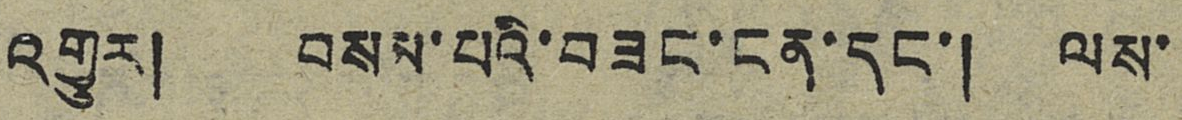འགྱུར། བསམ་པའི་བཟང་ངན་དང་། ལས་
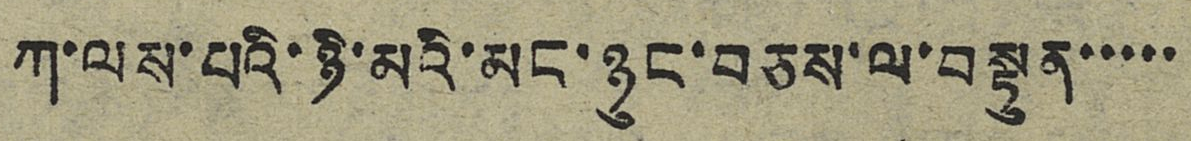ཀ་ལས་པའི་ཉི་མའི་མང་ཉུང་བཅས་ལ་བསྟུན་་་་་
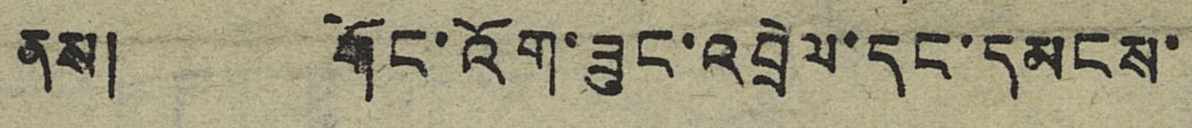ནས། གོང་འོག་ཟུང་འབྲེལ་དང་དམངས་
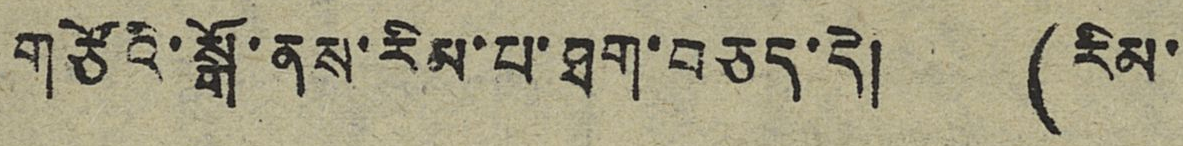གཙོའི་སྒོ་ནས་རིམ་པ་ཐག་བཅད་དེ། (རིམ་
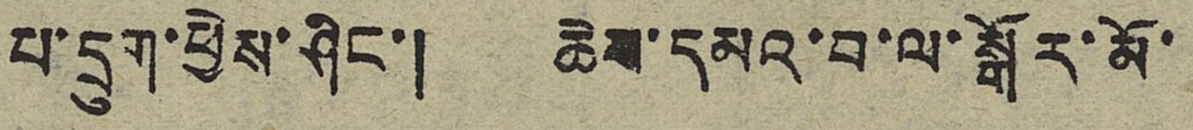པ་དྲུག་ཕྱེས་ཤིང་། ཆེས་དམའ་བ་ལ་སྒོར་མོ་
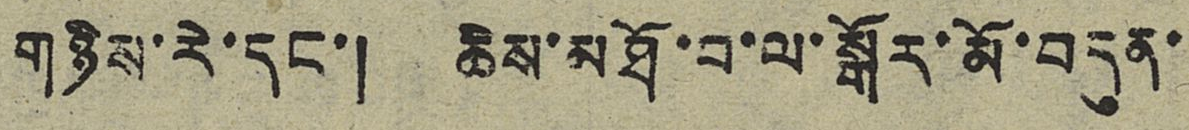གཉིས་རེ་དང་། ཆེས་མཐོ་བ་ལ་སྒོར་མོ་བདུན་
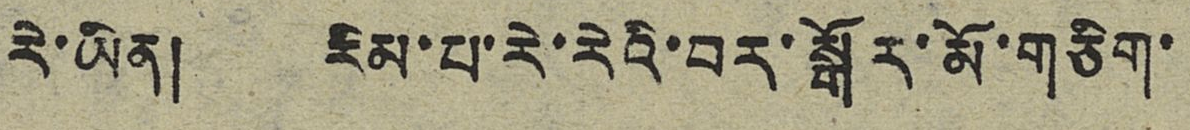རེ་ཡིན། རིམ་པ་རེ་རེའི་བར་སྒོར་མོ་གཅིག་
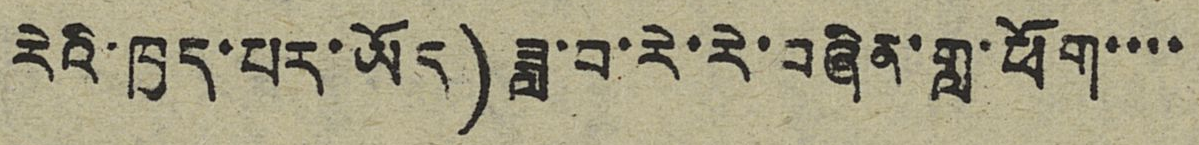རེའི་ཁྱད་པར་ཡོད) ཟླ་བ་རེ་རེ་བཞིན་གླ་ཕོག་་་་
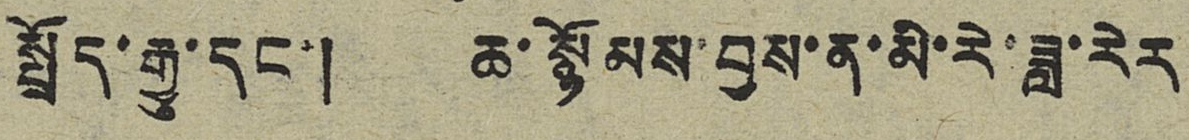སྤྲོད་རྒྱུ་དང་། ཆ་སྙོམས་བྱས་ན་མི་རེ་ཟླ་རེར
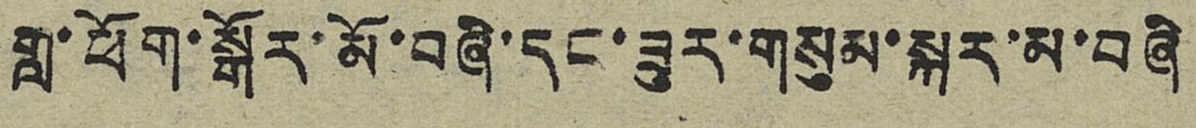གླ་ཕོག་སྒོར་མོ་བཞི་དང་ཟུར་གསུམ་སྐར་མ་བཞི
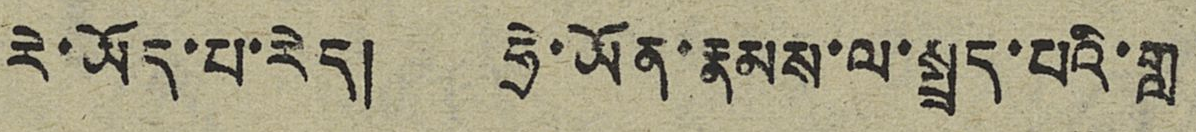རེ་ཡོད་པ་རེད། ཧྲེ་ཡོན་རྣམས་ལ་སྤྲད་པའི་གླ
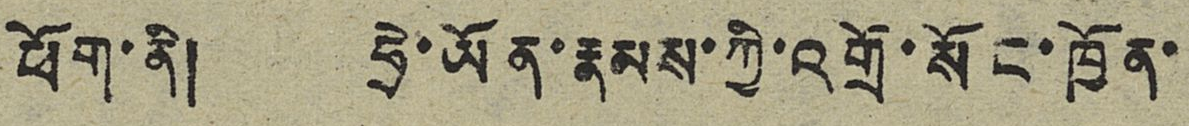ཕོག་ནི། ཧྲེ་ཡོན་རྣམས་ཀྱི་འགྲོ་སོང་ཁྱོན་
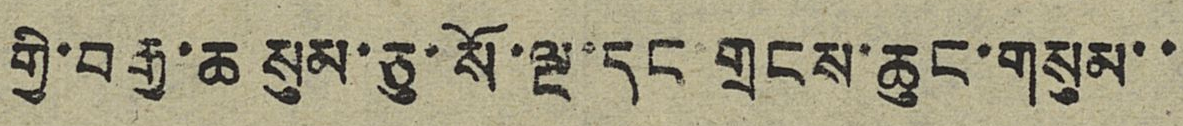གྱི་བརྒྱ་ཆ སུམ་ཅུ་སོ་ལྔ་དང གྲངས་ཆུང་གསུམ་་
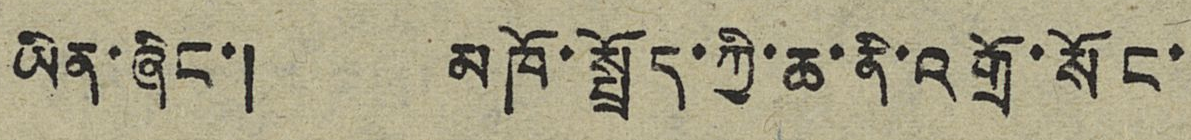ཡིན་ཞིང་། མཁོ་སྤྲོད་ཀྱི་ཆ་ནི་འགྲོ་སོང་
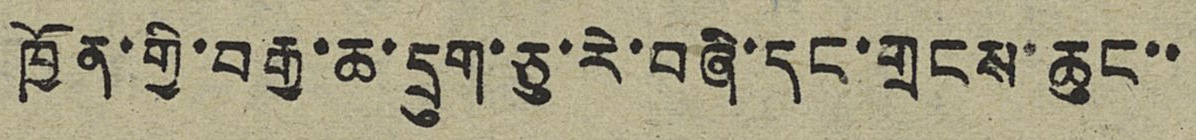ཁྱོན་གྱི་བརྒྱ་ཆ་དྲུག་ཅུ་རེ་བཞི་དང་གྲངས་ཆུང་་
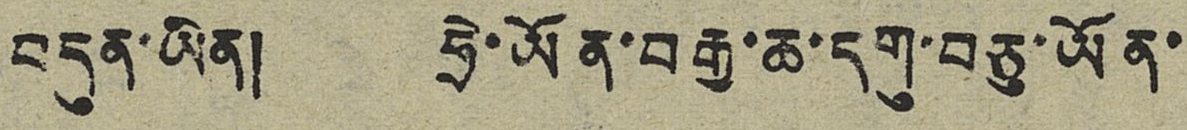བདུན་ཡིན། ཧྲེ་ཡོན་བརྒྱ་ཆ་དགུ་བཅུ་ཡོན་
